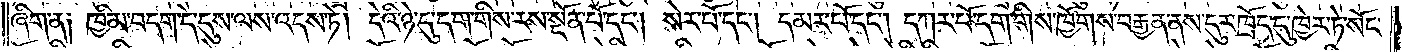ཞིག་ན། ཁྱིམ་བདག་དེ་དུས་ལས་འདས་ཏེ། དེའི་ཉེ་དུ་དག་གིས་རས་སྔོན་པོ་དང༌། སེར་པོ་དང༌། དམར་པོ་དང༌། དཀར་པོ་དག་གིས་ཁྱོགས་བརྒྱན་ནས་དུར་ཁྲོད་དུ་ཁྱེར་ཏེ་སོང་
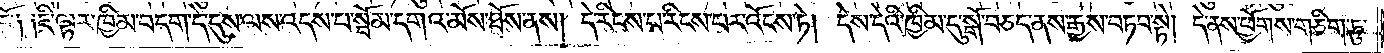ངོ༑ ༑ཇི་ལྟར་ཁྱིམ་བདག་དེ་དུས་ལས་འདས་པ་སྦོམ་དགའ་མོས་ཐོས་ནས། དེ་རིངས་པ་རིངས་པར་འོངས་ཏེ། དེས་དེའི་ཁྱིམ་དུ་སྒོ་བཅད་ནས་རྒྱས་བཏབ་སྟེ། དེ་ནས་ཕྱོགས་གཅིག་ཏུ་
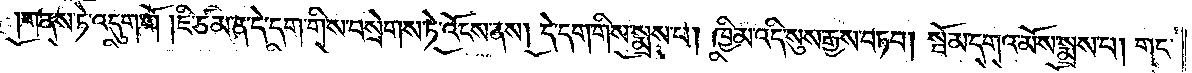གནས་ཏེ་འདུག་གོ། །ཇི་ཙམ་ན་དེ་དག་གིས་བསྲེགས་ཏེ་འོངས་ནས། དེ་དག་གིས་སྨྲས་པ། ཁྱིམ་འདི་སུས་རྒྱས་བཏབ། སྦོམ་དགའ་མོས་སྨྲས་པ། གང་
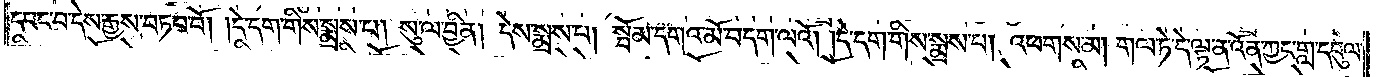དབང་བ་དེས་རྒྱས་བཏབ་བོ། །དེ་དག་གིས་སྨྲས་པ། སུ་ལ་བྱིན། དེས་སྨྲས་པ། སྦོམ་དགའ་མོ་བདག་ལའོ། །དེ་དག་གིས་སྨྲས་པ། འཕགས་མ། གལ་ཏེ་དེ་ལྟ་ན་འོན་ཀྱང་གླ་དབུལ་
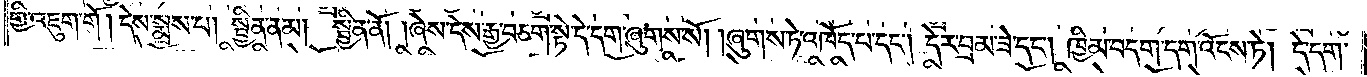གྱི་འཇུག་གོ། དེས་སྨྲས་པ། སྦྱིན་ནམ། སྦྱིན་ནོ། །ཞེས་དེས་རྒྱ་བཅག་སྟེ་དེ་དག་ཞུགས་སོ། །ཞུགས་ཏེ་འཁོད་པ་དང༌། དེར་བྲམ་ཟེ་དང༌། ཁྱིམ་བདག་དག་འོངས་ཏེ། དེ་དག་
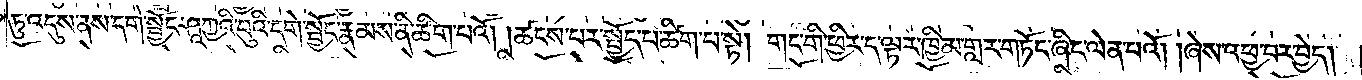ཏུ་འདུས་ནས་དགེ་སྦྱོང་ཤཱཀྱའི་བུའི་དགེ་སྦྱོང་རྣམས་ནི་ཚིག་པའོ། །ཚངས་པར་སྤྱོད་པ་ཚིག་པ་སྟེ། གང་གི་ཕྱིར་ད་ལྟར་ཁྱིམ་གླར་གཏོང་ཞིང་ལེན་པའོ། །ཞེས་འཕྱ་བར་བྱེད།
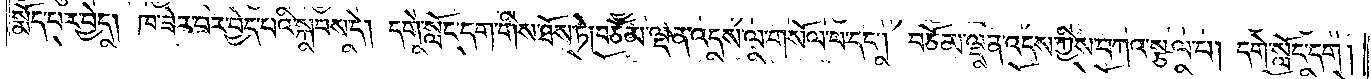སྨོད་པར་བྱེད། ཁ་ཟེར་བར་བྱེད་པའི་སྐབས་དེ། དགེ་སློང་དག་གིས་ཐོས་ཏེ། བཅོམ་ལྡན་འདས་ལ་གསོལ་བ་དང༌། བཅོམ་ལྡན་འདས་ཀྱིས་བཀའ་སྩལ་པ། དགེ་སློང་དག །
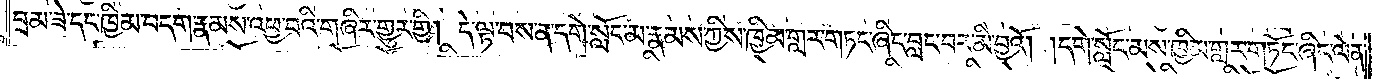བྲམ་ཟེ་དང་ཁྱིམ་བདག་རྣམས་འཕྱ་བའི་གཞིར་གྱུར་གྱི། དེ་ལྟ་བས་ན་དགེ་སློང་མ་རྣམས་ཀྱིས་ཁྱིམ་གླར་གཏང་ཞིང་བླང་བར་མི་བྱའོ། །དགེ་སློང་མས་ཁྱིམ་གླར་གཏོང་ཞིང་ལེན་
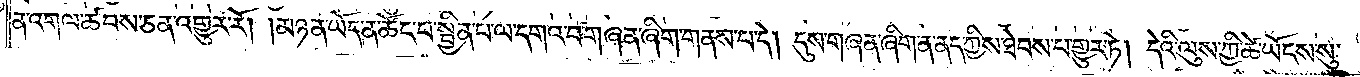ན་འགལ་ཚབས་ཅན་འགྱུར་རོ། །མཉན་ཡོད་ན་ཚོང་པ་སྦྱིན་པ་ལ་དགའ་བ་གཞན་ཞིག་གནས་པ་དེ། དུས་གཞན་ཞིག་ན་ནད་ཀྱིས་ཐེབས་པ་གྱུར་ཏེ། དེའི་ལུས་ཀྱི་ཚེ་ཡོངས་སུ་
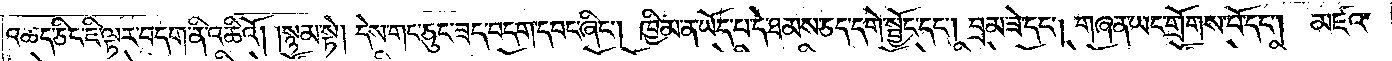འཆད་ཅིང་ཇི་ལྟར་བདག་ནི་འཆིའོ། །སྙམ་སྟེ། དེས་གང་ཅུང་ཟད་བདག་དབང་ཞིང༌། ཁྱིམ་ན་ཡོད་པ་དེ་ཐམས་ཅད་དགེ་སྦྱོང་དང༌། བྲམ་ཟེ་དང༌། གཞན་ཡང་གྲོགས་པོ་དང༌། མཛའ་
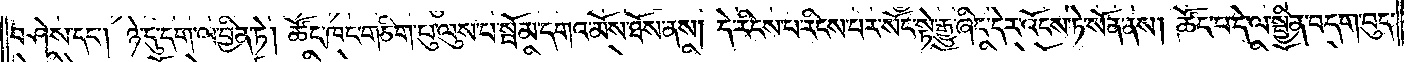བཤེས་དང༌། ཉེ་དུ་དག་ལ་བྱིན་ཏེ། ཚོང་ཁང་གཅིག་པུ་ལུས་པ་སྦོམ་དགའ་མོས་ཐོས་ནས། དེ་རིངས་པ་རིངས་པར་སོང་སྟེ་རྒྱུ་ཞིང་དེར་འོངས་ཏེ་སོན་ནས། ཚོང་པ་དེ་ལ་སྦྱིན་བདག་བུད་
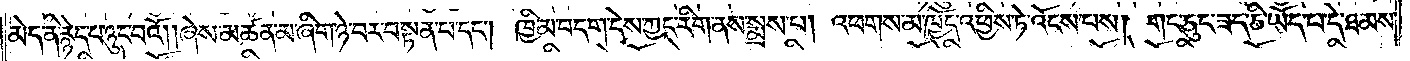མེད་ནི་རྙེད་པ་ཉུང་བའོ། །ཞེས་མཚན་མ་ཞིག་ཉེ་བར་བསྟན་པ་དང༌། ཁྱིམ་བདག་དེས་ཀྱང་རིག་ནས་སྨྲས་པ། འཕགས་མ་ཁྱོད་འཕྱིས་ཏེ་འོངས་པས། གང་ཅུང་ཟད་ཅི་ཡོད་པ་དེ་ཐམས་
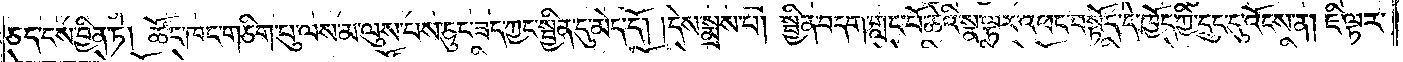ཅད་ངས་བྱིན་ཏེ། ཚོང་ཁང་གཅིག་པུ་ལས་མ་ལུས་པས་ཅུང་ཟད་ཀྱང་སྦྱིན་དུ་མེད་དོ། །དེས་སྨྲས་པ། སྦྱིན་བདག་གླང་པོ་ཆེའི་སྣ་ལྟར་འཕང་བསྟོད་དེ་ཁྱོད་ཀྱི་དྲུང་དུ་འོངས་ན། ཇི་ལྟར་
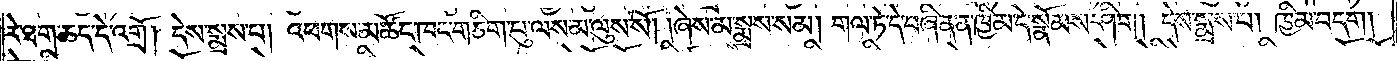རེ་ཐག་ཆད་དེ་འགྲོ། དེས་སྨྲས་པ། འཕགས་མ་ཚོང་ཁང་གཅིག་པུ་ལས་མ་ལུས་སོ། །ཞེས་མ་སྨྲས་སམ། གལ་ཏེ་དེ་བཞིན་ན་ཁྱིམ་དེ་སྣོམས་ཤིག །དེས་སྨྲས་པ། ཁྱིམ་བདག །
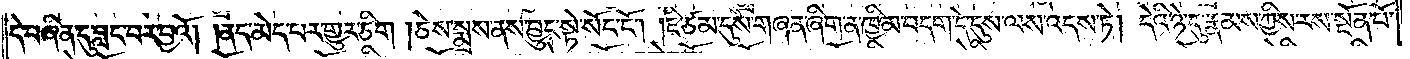དེ་བཞིན་དུ་བླང་བར་བྱའོ། །ནད་མེད་པར་གྱུར་ཅིག །ཅེས་སྨྲས་ནས་བྱུང་སྟེ་སོང་ངོ༌། །ཇི་ཙམ་དུས་གཞན་ཞིག་ན་ཁྱིམ་བདག་དེ་དུས་ལས་འདས་ཏེ། དེའི་ཉེ་དུ་རྣམས་ཀྱིས་རས་སྔོན་པོ་
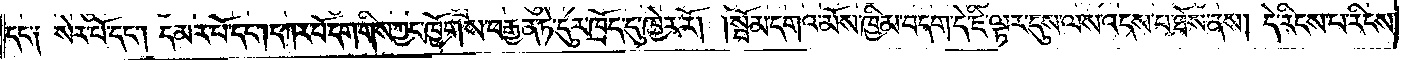དང་༑ སེར་པོ་དང༌། དམར་པོ་དང༌། དཀར་པོ་དག་གིས་ཀྱང་ཁྱོགས་བརྒྱན་ཏེ་དུར་ཁྲོད་དུ་ཁྱེར་རོ། །སྦོམ་དགའ་མོས་ཁྱིམ་བདག་དེ་ཇི་ལྟར་དུས་ལས་འདས་པ་ཐོས་ནས། དེ་རིངས་པ་རིངས་
